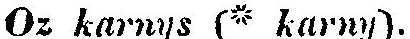Oz karnys (*karny).
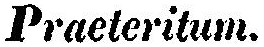Praeteritum.
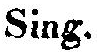Sing.
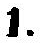1.
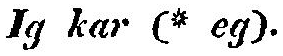Ig kar (* eg).
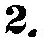2.
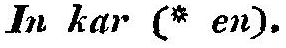In kar (* en).
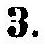3.
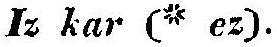I kar (* ez).
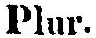Plur.
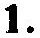1.
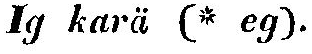lg karä (* eg).
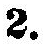2.
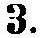3.
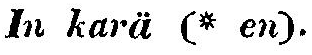ln karä (* en).
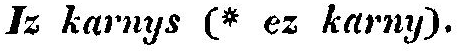Iz karnys (* ez karny).
